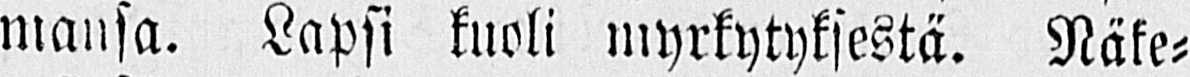mansa. Lapsi kuoli myrkytyksestä. Näke-
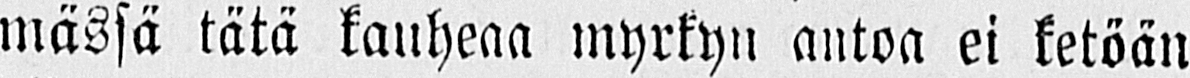mässä tätä kauheaa myrkyn antoa ei ketöän
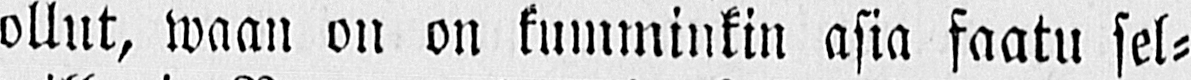ollut, waan on on kumminkin asia saatu sel-
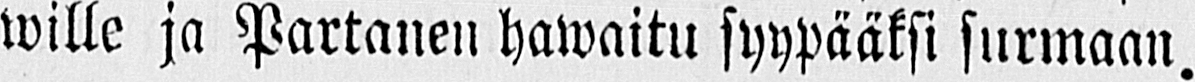wille ja Partanen hawaitu syypääksi surmaan.
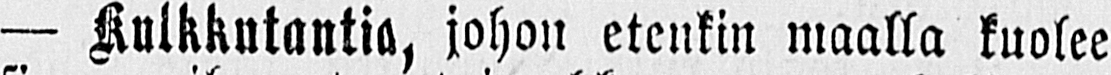— Kulkkutantia, johon etenkin maalla kuolee
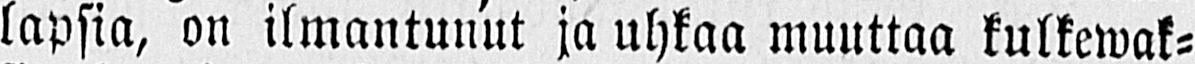lapsia, on ilmantunut ja uhkaa muuttaa kulkewak-
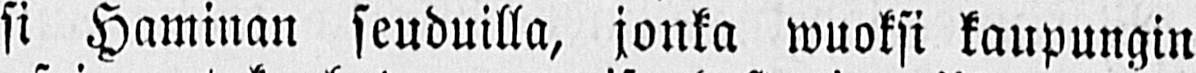si Haminan seuduilla, jonka wuoksi kaupungin
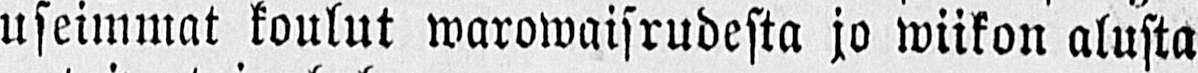useimmat koulut warowaisrudesta jo wiikon alusta
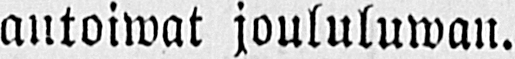antoiwat joululuwan.
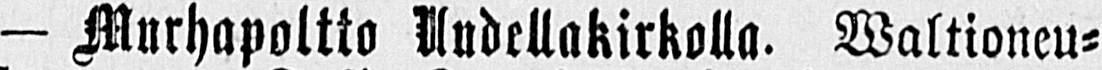— Murhapoltto Uudellakirkolla. Waltioneu-
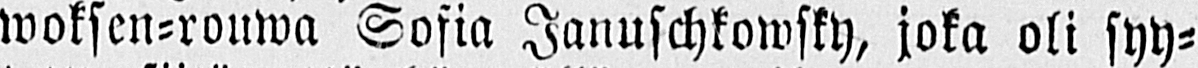woksen-rouwa Sofia Januschkowsky, joka oli syy-
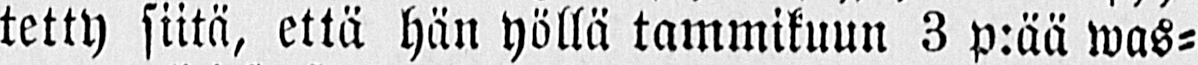tetty siitä, että hän yöllä tammikuun 3 p:ää was-
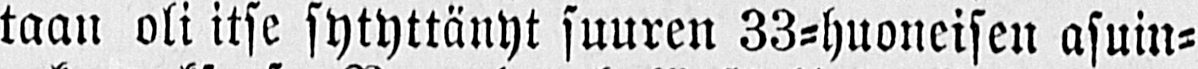taan oli itse sytyttänyt suuren 33-huoneisen asuin-
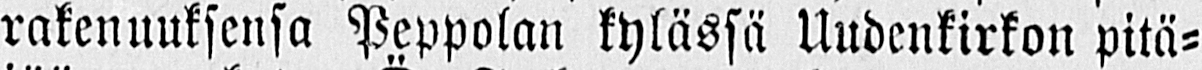rakenuuksensa Peppolan kylässä Uudenkirkon pitä-
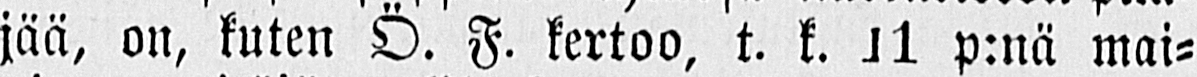jää, on, kuten Ö. F. kertoo, t. k. 11 p:nä mai-
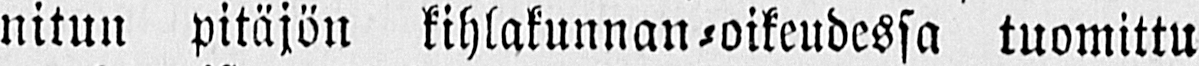nitun pitäjän kihlakunnan-oikeudessa tuomittu
